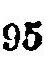95
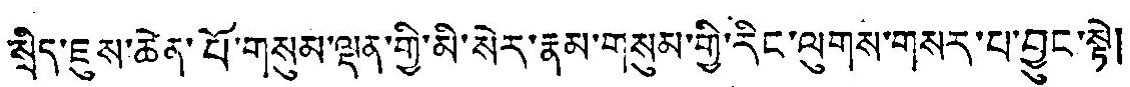སྲིད་ཇུས་ཆེན་པོ་གསུམ་ལྡན་གྱི་མི་སེར་རྣམ་གསུམ་གྱི་རིང་ལུགས་གསར་པ་བྱུང་སྟེ།
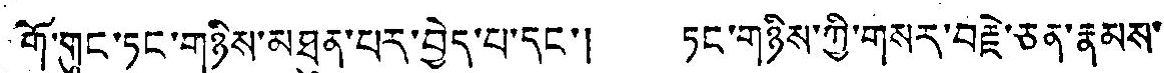གོ་གུང་ཏང་གཉིས་མཐུན་པར་བྱེད་པ་དང་། ཏང་གཉིས་ཀྱི་གསར་བརྗེ་ཅན་རྣམས་
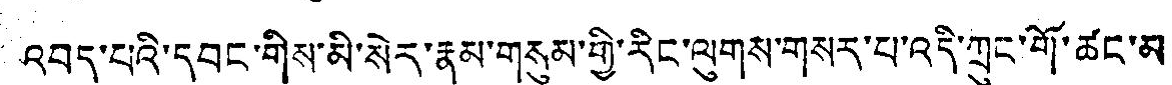འབད་པའི་དབང་གིས་མི་སེར་རྣམ་གརུམ་གྱི་རིང་ལུགས་གསར་པ་འདི་ཀྲུང་གོ་ཚང་མ་
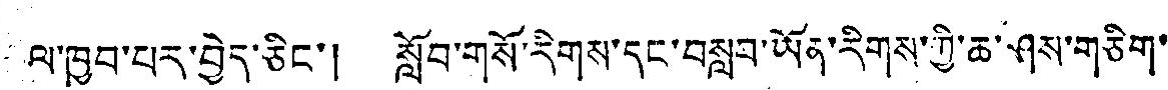ལ་ཁྱབ་པར་བྱེད་ཅིང་། སློབ་གསོ་རིགས་དང་བསླབ་ཡོན་རིགས་ཀྱི་ཆ་ཤས་གཅིག་
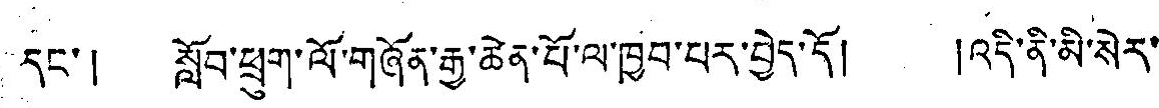དང་། སློབ་ཕྲུག་ལོ་གཞོན་རྒྱ་ཆེན་པོ་ལ་ཁྱབ་པར་བྱེད་དོ། །འདི་ནི་མི་སེར་
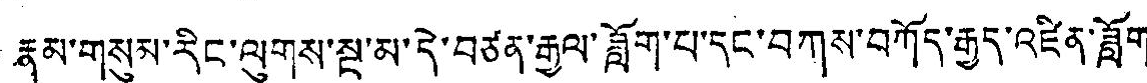རྣམ་གསུམ་རིང་ལུགས་སྔ་མ་དེ་བཙན་རྒྱལ་ཟློག་པ་དང་བཀས་བཀོད་རྒྱུད་འཛིན་ཟློག
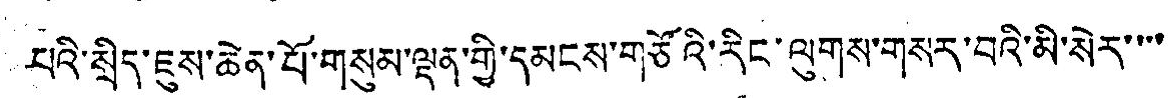པའི་སྲིད་ཇུས་ཆེན་པོ་གསུམ་ལྡན་གྱི་དམངས་གཙོའི་རིང་ལུགས་གསར་བའི་མི་སེར་་་་
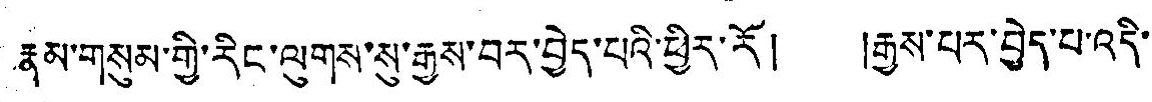རྣམ་གསུམ་གྱི་རིང་ལུགས་སུ་རྒྱས་བར་བྱེད་པའི་ཕྱིར་རོ། །རྒྱས་པར་བྱེད་པ་འདི་
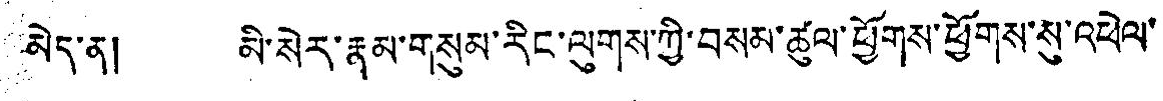མེད་ན། མི་སེར་རྣམ་གསུམ་རིང་ལུགས་ཀྱི་བསམ་ཚུལ་ཕྱོགས་ཕྱོགས་སུ་འཕེལ་
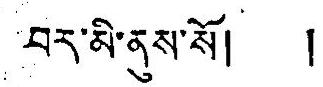བར་མི་ནུས་སོ། །
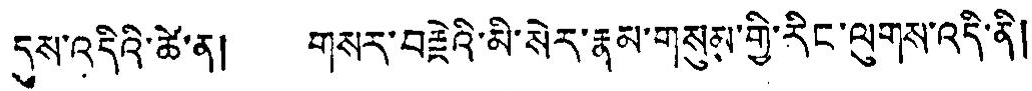དུས་འདིའི་ཚེ་ན། གསར་བརྗེའི་མི་སེར་རྣམ་གསུམ་གྱི་རིང་ལུགས་འདི་ནི།
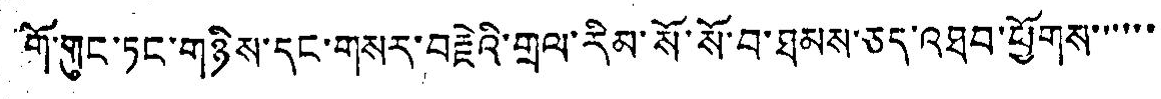གོ་གུང་ཏང་གཉིས་དང་གསར་བརྗེའི་གྲལ་རིམ་སོ་སོ་བ་ཐམས་ཅད་འཐབ་ཕྱོགས་་་་་་་
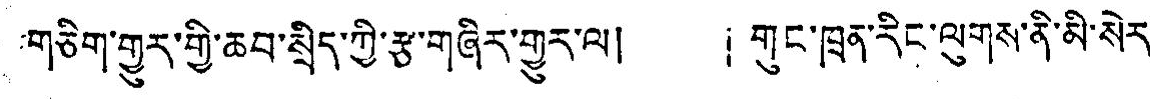གཅིག་གྱུར་གྱི་ཆབ་སྲིད་ཀྱི་རྩ་གཞིར་གྱུར་ལ། 「གུང་ཁྲན་རིང་ལུགས་ནི་མི་སེར་
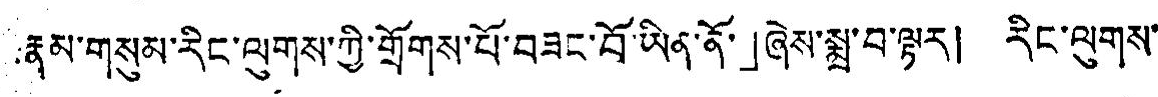རྣམ་གསུམ་རིང་ལུགས་ཀྱི་གྲོགས་པོ་བཟང་བོ་ཡིན་ནོ་」ཞེས་སྨྲ་བ་ལྟར། རིང་ལུགས་
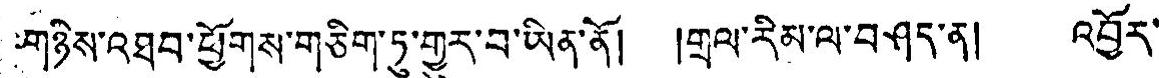གཉིས་འཐབ་ཕྱོགས་གཅིག་ཏུ་གྱུར་བ་ཡིན་ནོ། །གྲལ་རིམ་ལ་བཤད་ན། འབྱོར་
